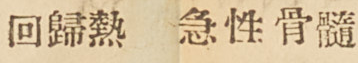回歸熱 急性骨髓炎
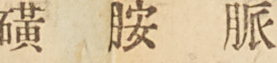磺 胺 脈
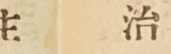主 治
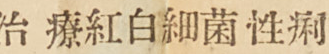治 療紅白細菌性痢 疾
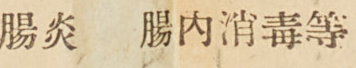腸炎 腸內消毒等
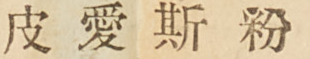皮 愛 斯 粉
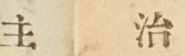主 治
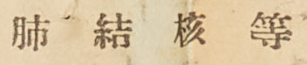肺 結 核 等 症
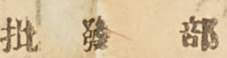批 發 部
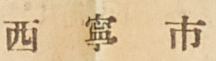西 寧 市
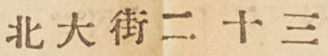北大街二十三號
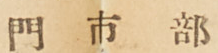門 市 部
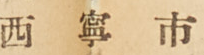西 寧 市
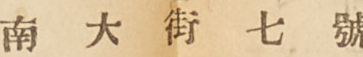南 大 街 七 號
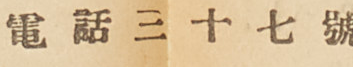電 話 三 十 七 號
